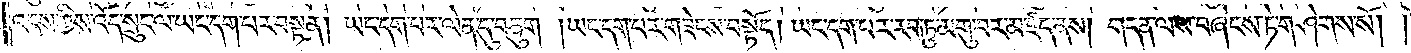འདས་ཀྱིས་འོད་སྲུང་ལ་ཡང་དག་པར་བསྟན། ཡང་དག་པར་ལེན་དུ་བཅུག །ཡང་དག་པར་གཟེངས་བསྟོད། ཡང་དག་པར་རབ་ཏུ་མགུ་བར་མཛད་ནས། གདན་ལས་བཞེངས་ཏེ་གཤེགས་སོ། །
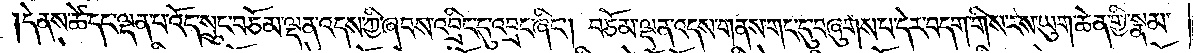དེ་ནས་ཚེ་དང་ལྡན་པ་འོད་སྲུང་བཅོམ་ལྡན་འདས་ཀྱི་ཞབས་འབྲིང་དུ་འབྲང་ཞིང༌། བཅོམ་ལྡན་འདས་གནས་གང་དུ་བཞུགས་པ་དེར་བདག་གིས་རས་ཡུག་ཆེན་གྱི་སྣམ་
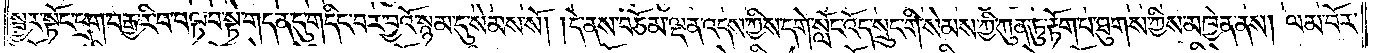སྦྱར་སྟོང་ཕྲག་བརྒྱ་རི་བ་བལྟ་བ་སྟེ་གདན་དུ་གདིང་བར་བྱའོ་སྙམ་དུ་སེམས་སོ། །དེ་ནས་བཅོམ་ལྡན་འདས་ཀྱིས་དགེ་སློང་འོད་སྲུང་གི་སེམས་ཀྱི་ཀུན་ཏུ་རྟོག་པ་ཐུགས་ཀྱིས་མཁྱེན་ནས། ལམ་བོར་
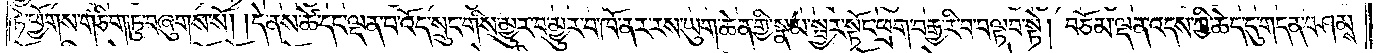ཏེ་ཕྱོགས་གཅིག་ཏུ་བཞུགས་སོ། །དེ་ནས་ཚེ་དང་ལྡན་པ་འོད་སྲུང་གིས་མྱུར་བ་མྱུར་བ་ཁོ་ནར་རས་ཡུག་ཆེན་གྱི་སྣམ་སྦྱར་སྟོང་ཕྲག་བརྒྱ་རི་བ་བལྟ་བ་སྟེ། བཅོམ་ལྡན་འདས་ཀྱི་ཆེད་དུ་གདན་བཤམས་
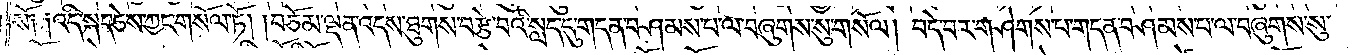སོ༑ ༑འདི་སྐད་ཅེས་ཀྱང་གསོལ་ཏོ། །བཅོམ་ལྡན་འདས་ཐུགས་བརྩེ་བའི་སླད་དུ་གདན་བཤམས་པ་ལ་བཞུགས་སུ་གསོལ། བདེ་བར་གཤེགས་པ་གདན་བཤམས་པ་ལ་བཞུགས་སུ་
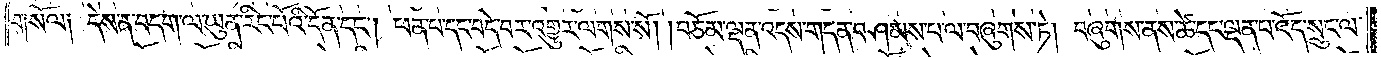གསོལ༑ དེས་ན་བདག་ལ་ཡུན་རིང་པོའི་དོན་དང༌། ཕན་པ་དང་བདེ་བར་འགྱུར་ལགས་སོ། །བཅོམ་ལྡན་འདས་གདན་བཤམས་པ་ལ་བཞུགས་ཏེ། བཞུགས་ནས་ཚེ་དང་ལྡན་པ་འོད་སྲུང་ལ་
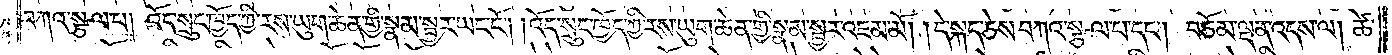བཀའ་སྩལ་པ། འོད་སྲུང་ཁྱོད་ཀྱི་རས་ཡུག་ཆེན་གྱི་སྣམ་སྦྱར་ཡང་ངོ༌། །འོད་སྲུང་ཁྱོད་ཀྱི་རས་ཡུག་ཆེན་གྱི་སྣམ་སྦྱར་འཇམ་མོ། །དེ་སྐད་ཅེས་བཀའ་སྩལ་པ་དང༌། བཅོམ་ལྡན་འདས་ལ། ཚེ་
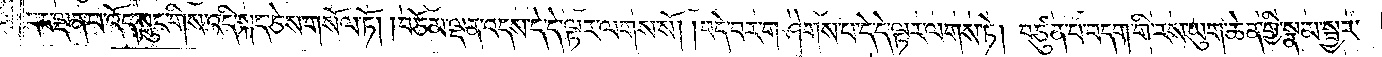དང་ལྡན་པ་འོད་སྲུང་གིས་འདི་སྐད་ཅེས་གསོལ་ཏོ། །བཅོམ་ལྡན་འདས་དེ་དེ་ལྟར་ལགས་སོ། །བདེ་བར་གཤེགས་པ་དེ་དེ་ལྟར་ལགས་ཏེ། བཙུན་པ་བདག་གི་རས་ཡུག་ཆེན་གྱི་སྣམ་སྦྱར་
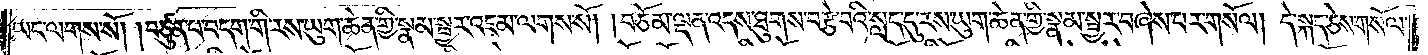ཡང་ལགས་སོ། །བཙུན་པ་བདག་གི་རས་ཡུག་ཆེན་གྱི་སྣམ་སྦྱར་འཇམ་ལགས་སོ། །བཅོམ་ལྡན་འདས་ཐུགས་བརྩེ་བའི་སླད་དུ་རས་ཡུག་ཆེན་གྱི་སྣམ་སྦྱར་བཞེས་པར་གསོལ། དེ་སྐད་ཅེས་གསོལ་
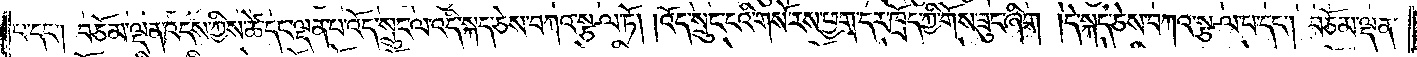པ་དང༌། བཅོམ་ལྡན་འདས་ཀྱིས་ཚེ་དང་ལྡན་པ་འོད་སྲུང་ལ་འདི་སྐད་ཅེས་བཀའ་སྩལ་ཏོ། །འོད་སྲུང་ངའི་གསོ་རས་ཕྱག་དར་ཁྲོད་ཀྱི་གོས་ཟུང་ཞིག །དེ་སྐད་ཅེས་བཀའ་སྩལ་པ་དང༌། བཅོམ་ལྡན་
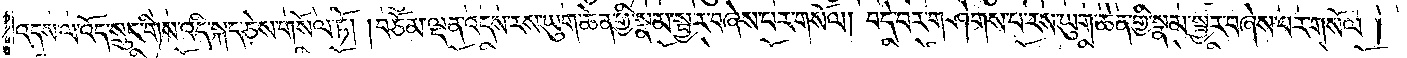འདས་ལ་འོད་སྲུང་གིས་འདི་སྐད་ཅེས་གསོལ་ཏོ། །བཅོམ་ལྡན་འདས་རས་ཡུག་ཆེན་གྱི་སྣམ་སྦྱར་བཞེས་པར་གསོལ། བདེ་བར་གཤེགས་པ་རས་ཡུག་ཆེན་གྱི་སྣམ་སྦྱར་བཞེས་པར་གསོལ།
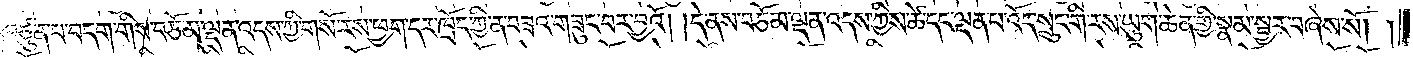བཙུན་པ་བདག་གིས་བཅོམ་ལྡན་འདས་ཀྱི་གསོ་རས་ཕྱག་དར་ཁྲོད་ཀྱི་ན་བཟའ་གཟུང་བར་བྱའོ། །དེ་ནས་བཅོམ་ལྡན་འདས་ཀྱིས་ཚེ་དང་ལྡན་པ་འོད་སྲུང་གི་རས་ཡུག་ཆེན་གྱི་སྣམ་སྦྱར་བཞེས་སོ། །
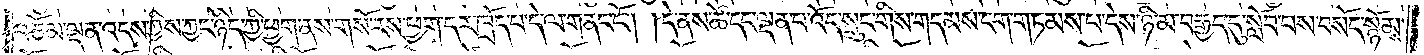བཅོམ་ལྡན་འདས་ཀྱིས་ཀྱང་ཉིད་ཀྱི་ཕྱག་ནས་གསོ་རས་ཕྱག་དར་ཁྲོད་པ་དེ་ལ་གནང་ངོ༌། །དེ་ནས་ཚེ་དང་ལྡན་པ་འོད་སྲུང་གིས་གདམས་ངག་གཏམས་པ་དེས་ཉི་མ་བརྒྱད་དུ་སློབ་པས་བསོད་སྙོམས་
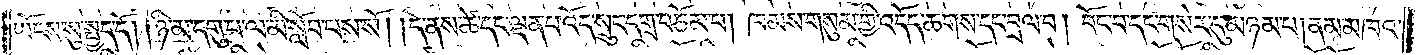ཡོངས་སུ་སྤྱད་དོ། །ཉི་མ་དགུ་པ་ལ་མི་སློབ་པས་སོ། །དེ་ནས་ཚེ་དང་ལྡན་པ་འོད་སྲུང་དགྲ་བཅོམ་པ། ཁམས་གསུམ་གྱི་འདོད་ཆགས་དང་བྲལ་པ། བོང་བ་དང་གསེར་དུ་མཉམ་པ། ནམ་མཁའ་
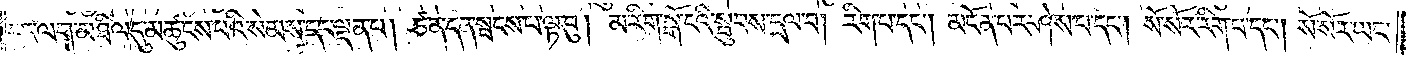དང་ལག་མཐིལ་དུ་མཚུངས་པའི་སེམས་དང་ལྡན་པ། ཙན་དན་སྦངས་པ་ལྟ་བུ། མ་རིག་སྒོ་ངའི་སྦུབས་དྲལ་བ། རིག་པ་དང༌། མངོན་པར་ཤེས་པ་དང༌། སོ་སོར་རིག་པ་དང༌། སོ་སོར་ཡང་
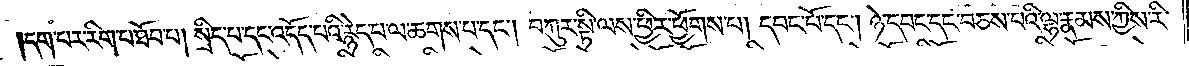དག་པར་རིག་པ་ཐོབ་པ། སྲིད་པ་དང་འདོད་པའི་རྙེད་པ་ལ་ཆགས་པ་དང༌། བཀུར་སྟི་ལས་ཕྱིར་ཕྱོགས་པ། དབང་པོ་དང༌། ཉེ་དབང་དང་བཅས་པའི་ལྷ་རྣམས་ཀྱིས་རི་
